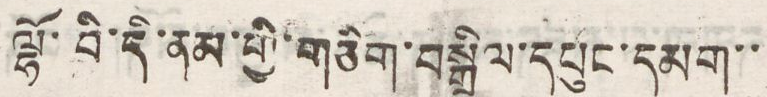ལྷོ་བི་དི་ནམ་གྱི་གཅིག་བསྒྲིལ་དཔུང་དམག་་
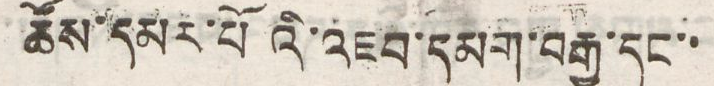ཚོས་དམར་པོ འི་འཇབ་དམག་བརྒྱ་དང་་
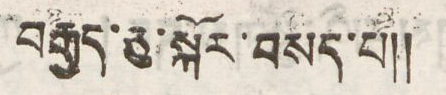བརྒྱད་ཅུ་སྐོར་བསད་པ།།
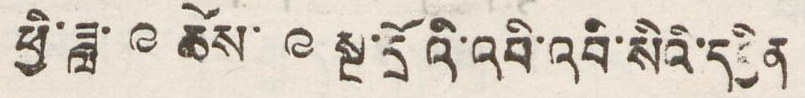ཕྱི་ཟླ་ ༩ ཚེས་ ༩ སྔ་དྲོའི་འབི་འབི་སིའི་དབྱིན
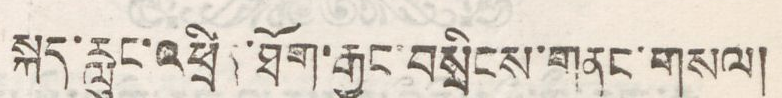སྐད་རླུང་འཕྲིན་ཐོག་རྒྱང་བསྲིངས་གནང་གསལ།
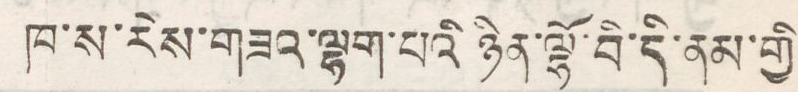ཁ་ས་རེས་གཟའ་ལྷག་པའི ཉིན་ལྷོ་བི་དི་ནམ་གྱི
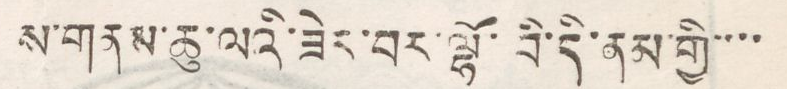ས་གནས་ཆུ་ལའི་ཟེར་བར་ལྷོ་བི་དི་ནམ་གྱི་་་་
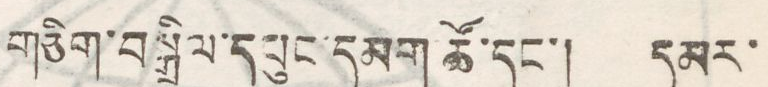གཅིག་བསྒྲིལ་དཔུང་དམག ཚོ་དང་། དམར་
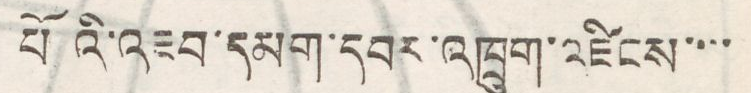པོ འི་འཇབ་དམག་དབར་འཁྲུག་འཛིངས་་་་
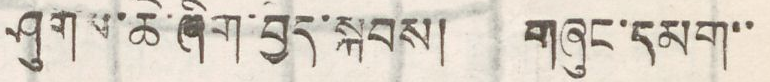ཤུགས་ཆེ་ཞིག་བྱེད་སྐབས། གཞུང་དམག་་
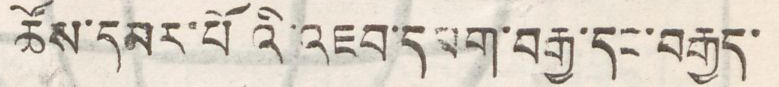ཚོས་དམར་པོའི་འཇབ་དམག་བརྒྱ་དང་བརྒྱད་
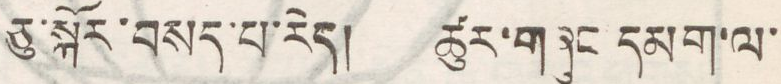ཅུ་སྐོར་བསད་པ་རེད། ཚུར་གཞུང དམག་ལ་
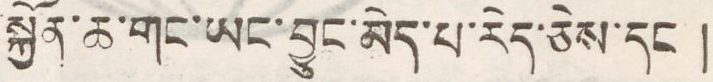སྐྱོན་ཆ་གང་ཡང་བྱུང་མེད་པ་རེད་ཅེས་དང །
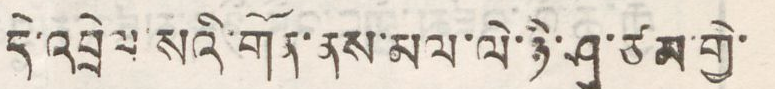དེ་འབྲེལ་སའི་གོན་ནས་མལ་ལེ་ཉི་ཤུ་ཙམ་གྱི་
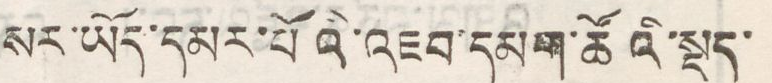སར་ཡོད་དམར་པོའི་འཇབ་དམག་ཚོའི་སྡད་
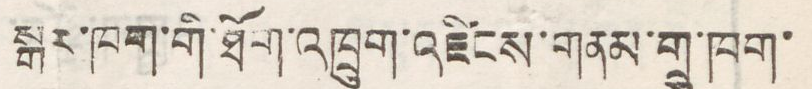སྒར་ཁག་གི་ཐོག་འཁྲུག་འཛིངས་གནམ་གྲུ་ཁག་
